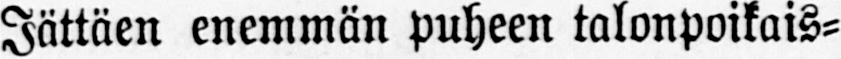Jättäen enemmän puheen talonpoikais-
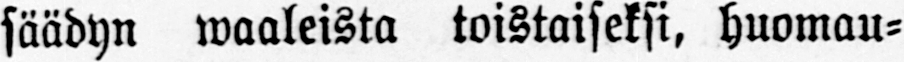säädyn waaleista toistaiseksi, huomau-
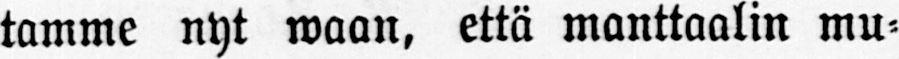tamme nyt waan, että manttaalin mu-
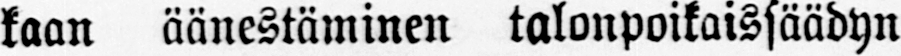kaan äänestäminen talonpoikaissäädyn
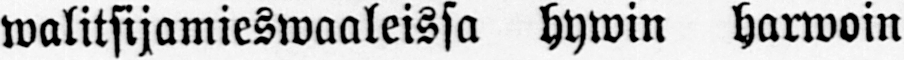walitsijamieswaaleissa hywin harwoin
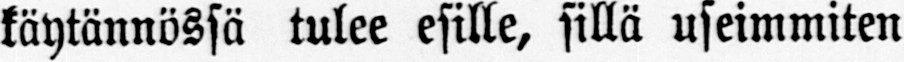käytännössä tulee esille, sillä useimmiten
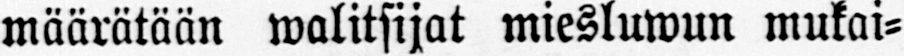määrätään walitsijat miesluwun mukai-
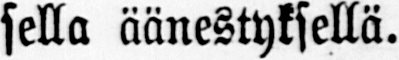sella äänestyksellä.
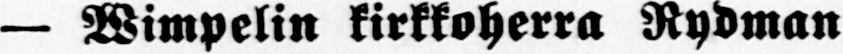— Wimpelin kirkkoherra Rydman
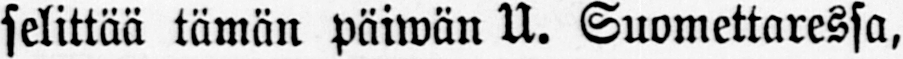selittää tämän päiwän U. Suomettaressa,
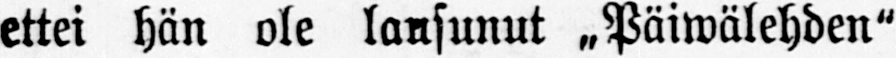ettei hän ole lausunut „Päiwälehden"
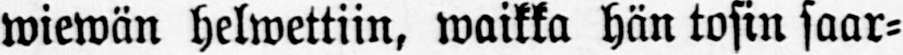wiewän helwettiin, waikka hän tosin saar-
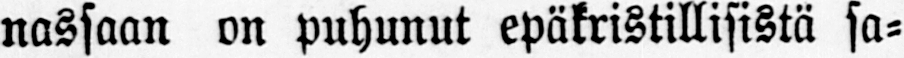nassaan on puhunut epäkristillisistä sa-
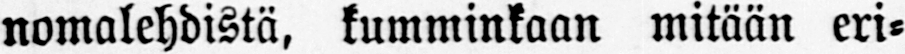nomalehdistä, kumminkaan mitään eri-
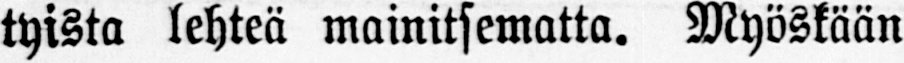tyista lehteä mainitsematta. Myöskään
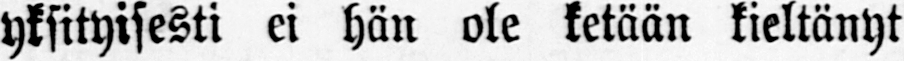yksityisesti ei hän ole ketään kieltänyt
